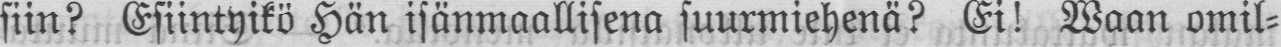siin? Esiintyikö Hän isänmaallisena suurmiehenä? Ei! Waan omil-
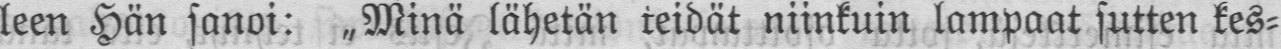leen Hän sanoi: „Minä lähetän teidät niinkuin lampaat sutten kes-
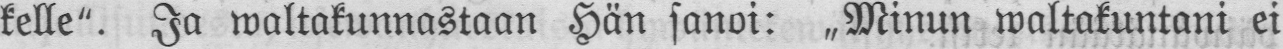kelle". Ja waltakunnastaan Hän sanoi: „Minun waltakuntani ei
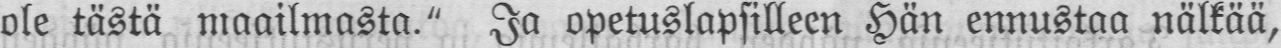ole tästä maailmasta." Ja opetuslapsilleen Hän ennustaa nälkää,
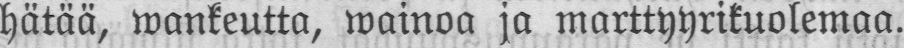hätää, wankeutta, wainoa ja marttyyrikuolemaa.
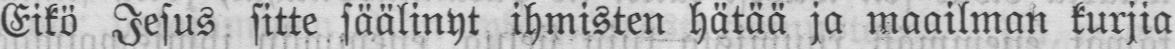Eikö Jesus sitte säälinyt ihmisten hätää ja maailman kurjia
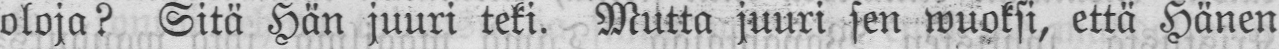oloja? Sitä Hän juuri teki. Mutta juuri sen wuoksi, että Hänen
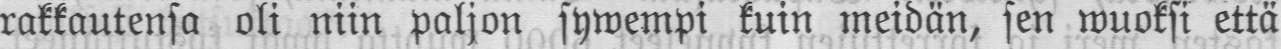rakkautensa oli niin paljon sywempi kuin meidän, sen wuoksi että
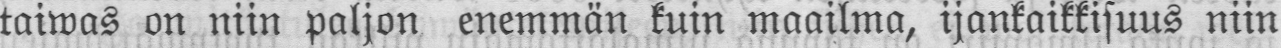taiwas on niin paljon enemmän kuin maailma, ijankaikkisuus niin
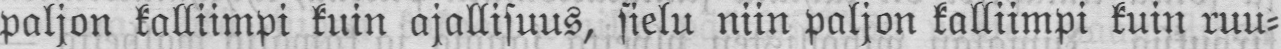paljon kalliimpi kuin ajallisuus, sielu niin paljon kalliimpi kuin ruu-
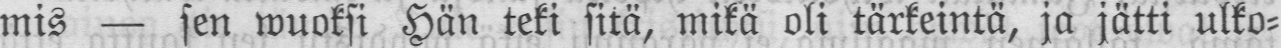mis — sen wuoksi Hän teki sitä, mikä oli tärkeintä, ja jätti ulko-
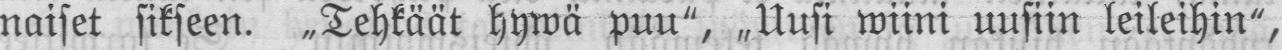naiset sikseen. „Tehkäät hywä puu", »Uusi wiini uusiin leileihin",
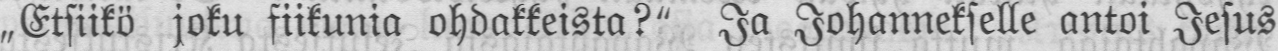„Etsiikö joku fiikunia ohdakkeista?" Ja Johannekselle antoi Jesus
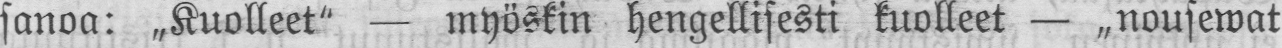sanoa: „Kuolleet" — myöskin hengellisesti kuolleet — „nousewat
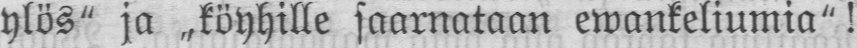ylös" ja „köyhille saarnataan ewankeliumia"!
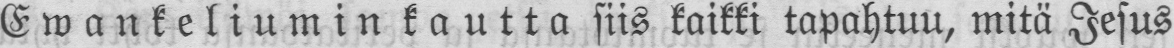Ewankeliumin kautta siis kaikki tapahtuu, mitä Jesus
